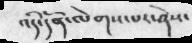འདི་དོན་ལེགས་པར་ཤེས་
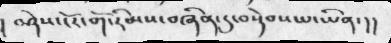། བཤེས་ངོར་གོ་རིམས་བཞིན་དུ་བསྡེབས་པ་ཡིན་།།
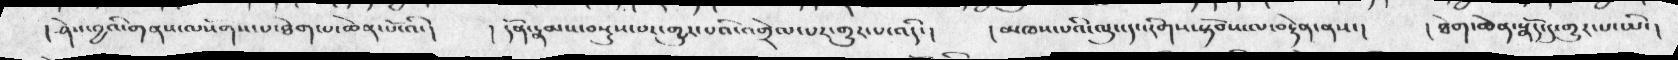། ཤེས་བྱའི་གནས་ལསོགས་པ་ཐེག་པ་ཆེན་པོ་འི་།   ། དོན་རྣམས་བསྡུས་པར་གྱུར་པའི་འགྲེལ་པར་གྱུར་པ་འདི་།  ། མཁས་པའི་ལུང་དང་རིགས་སྟོབས་ལ་བརྟེན་ནས་།   ། ཐེག་ཆེན་སྣོད་དུ་གྱུར་པ་ཡི་།
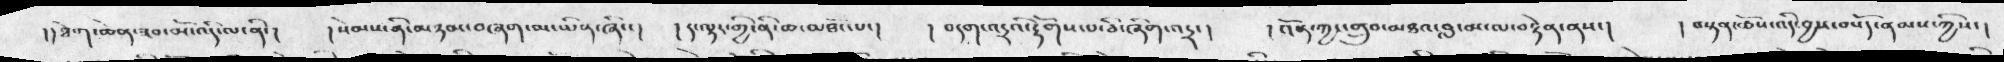།། ཐེག་ཆེན་ཟབ་མི་འདི་ལ་ནི་།  །སེམས་ནི་མཉམ་བཞག་མ་ཡིན་ཞིང་།  །ད་ལྟར་གྱི་ནི་ཆ་མཐོང་པ་།  །བདག་འདྲའི་རྟོགས་པ་ཅི་ཞིག་འདྲ་།   །འོན་ཀྱང་གྲུབ་མཐའ་བླ་མ་ལ་བརྟེན་ནས་།   །བསྟན་བཅོས་འདི་བྱས་བསོད་ནམས་ཀྱིས་།
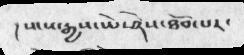།སངས་རྒྱས་ཡེ་ཤེས་ཐོབ་པར་
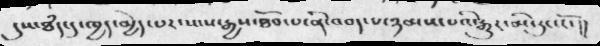དུས་ཐཾད་དུ་ཁྱད་མྱེད་པར་སངས་རྒྱས་ཐོབ་པ་ནི་འབད་པ་ཉམས་པའི་རྒྱུར་མ་རུང་ངོ་།།
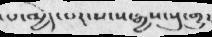པ་མྱེད་པར་སངས་རྒྱས་སུ་གྱུར
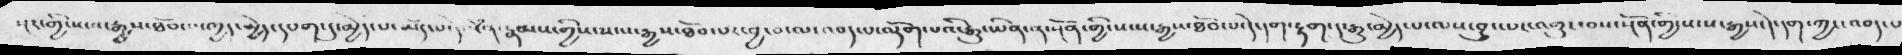སྔར་གྱི་སངས་རྒྱས་ཐོབ་པ་ཁྱད་མྱེད་དཔག་དུ་མྱེད་པ་ཡད་དེ་སེཾན་རྣམས་གྱིས་སངས་རྒྱས་ཐོབ་པར་བྱ་བ་ལ་འབད་པ་ལྡོག་པའི་རྒྱུ་ཡིན་ན་སྔོན་གྱི་སངས་རྒྱས་ཐོབ་པ་དེ་དག་རྟག་དུ་རྒྱུ་མྱེད་པ་ལས་བྱུང་པར་འགྱུར་བས་སྔོན་གྱི་སངས་རྒྱས་དེ་དག་ཀྱང་འབད་པ
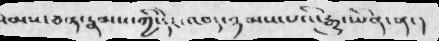སེམས་ཅན་རྣམས་ཀྱི་དེར་འབད་ཉམས་པའི་རྒྱུ་ཡིན་ན་།
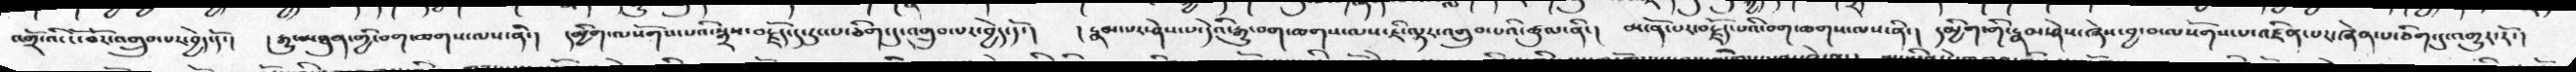འགྲོ་འི་ངོ་བོར་འགྲུབ་པར་བྱེད་དོ་།   །རྒྱུ་མཐུན་གྱི་བག་ཆགས་ལས་ནི་།   དམྱིག་ལསོགས་པའི་སྒྲས་བརྗོད་དུ་རུང་པ་ཅིག་དུ་འགྲུབ་པར་བྱེད་དོ་།   །རྣམ་པར་ཤེས་པ་དེའི་རྒྱུ་བག་ཆགས་ལས་ཇི་ལྟར་འགྲུབ་པའི་ཚུལ་ནི་།   མངོན་པར་བརྗོད་པའི་བག་ཆགས་ལས་ནི་།   །མྱིག་གི་རྣམ་ཤེས་ཞེས་བྱ་བ་ལསོགས་པ་འཛིན་པར་ཞེན་པ་ཅིག་དུ་འགྱུར་རོ་།
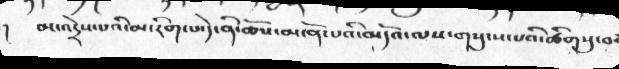།  མ་འདྲེས་པའི་མ་རིག་པ་དེ་ནི་ཆོས་མངོན་པའི་མདོའ་ལས་གསུངས་པའི་ཚིགསུ་བཅ
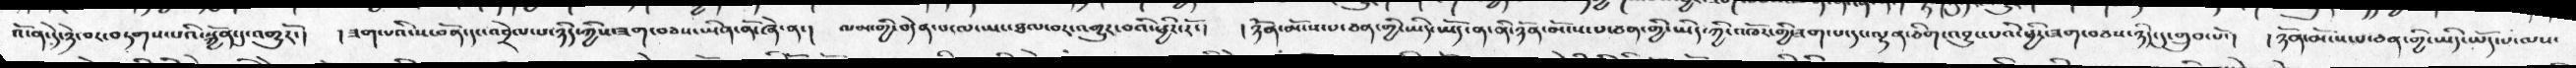འོ་ན་དེ་ཉེ་བར་བཏགས་པའི་སྐྱོན་དུ་འགྱུརོ་།  །ཟག་པའི་ས་བོན་དང་འབྲེལ་པ་ཉིད་ཀྱིས་ཟག་བཅས་ཡིན་ནོ་ཞེ་ན་།  ལམ་གྱི་བདེན་པ་ལ་ཡང་ཐལ་བར་འགྱུར་བའི་ཕྱིར་རོ་།  །ཉོན་མོངས་པ་ཅན་གྱི་ཡིད་ཡོད་ན་ནི་ཉོན་མོངས་པ་ཅན་གྱི་ཡིད་ཀྱི་འཁོར་གྱི་ཟག་པ་དང་ལྷན་ཅིག་འབྱུང་པའི་ཕྱིར་ཟག་བཅས་ཉིད་དུ་གྲུབ་པོ་།  །ཉོན་མོངས་པ་ཅན་གྱི་ཡིད་ཡོད་པ་ལས་
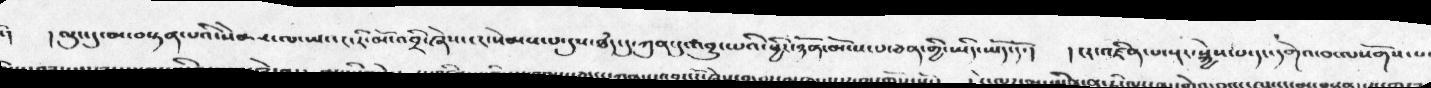་།  །ལུང་དུ་མ་བསྟན་པའི་སེམས་ལ་ཡང་ང་རི་མོ་འབྲི་ཞེས་ངར་སེམས་པ་དུས་ཐདཾ་དུ་ཀུན་དུ་འབྱུང་པའི་ཕྱིར་ཉོན་མོངས་པ་ཅན་གྱི་ཡིད་ཡོད་དོ་།  །ངར་འཛིན་པ་སྔར་སྐྱེས་པ་དང་དགེའ་བ་ལསོགས་པ་
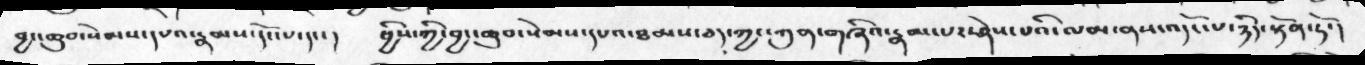བྱང་ཆུབ་སེམས་དཔའ་རྣམས་དོང་པ་དང་།   ཕྱིས་ཀྱི་བྱང་ཆུབ་སེམས་དཔའ་ཐམས་ཅད་ཀྱང་ཀུན་གཞིའ་རྣམ་པར་ཤེས་པའི་ལམ་ནས་འདོང་པ་ཉིད་སྟོན་ཏོ་།
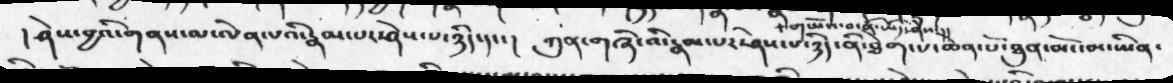།ཤེས་བྱའི་གནས་ལ་ལེན་པའི་རྣམ་པར་ཤེས་པ་ཉིད་དང་།   ཀུན་གཞི་འི་རྣམ་པར་ཤེས་པ་ཉིད་ནི་ཐེག་པ་ཆེན་པོ་ཐུན་མོང་མ་ཡིན་
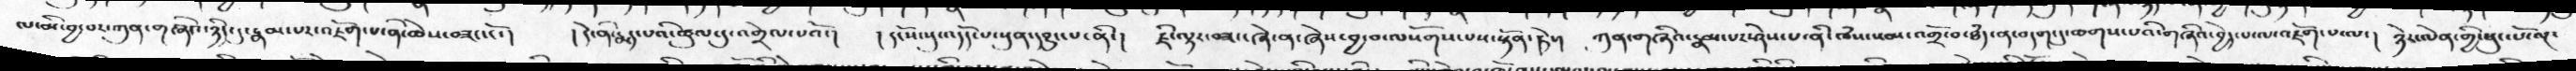ལ་མི་བྱ་བར་ཀུན་གཞིའ་ཉིད་དུ་རྣམ་པར་འཇོག་པ་ནི་ཆེས་བཟང་ངོ་།   །དེ་ནི་རྨད་པའི་ཚུལ་དུ་འགྲེལ་པའོ་།  །དངོས་སུ་འདོད་པ་སུན་དབྱུང་པ་ནི་།   ཇི་ལྟར་བཟང་ཞེ་ན་ཞེས་བྱ་བ་ལསོགས་པས་སྟོན་ཏེ་།   ཀུན་གཞིའ་རྣམ་པར་ཤེས་པ་ནི་ཁཾས་སམ་འགྲོ་བ་ཐཾད་ན་བདག་དུ་ཆགས་པའི་གཞིའ་བྱེད་པ་ལ་འཇོག་པ་ལ་།  ཉེར་ལེན་གྱི་ཕུང་པོ་ལྔ་
